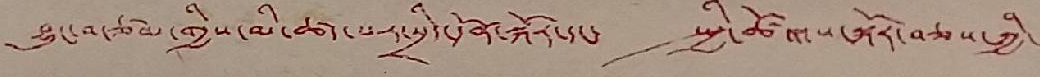བྱུང་བ་ཙམ་གྱིས་མི་ཚད་པར་སྲིད་དོན་སྐོར་དང་ སྤྱི་ཚོགས་སྐོར་བཅས་ཀྱི་
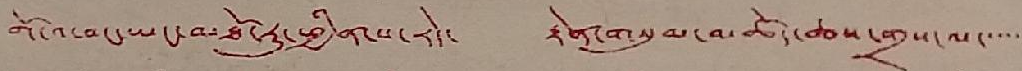གོ་འཕང་ཡང་མཐོ་རུ་ཕྱིན་པ་རེད་ རྟེན་གསུམ་མཆོད་ཆས་གྲས་ལ་་་་་
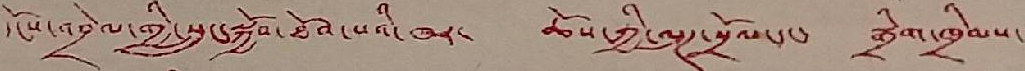དངོས་འབྲེལ་གྱི་སྲུང་སྐྱོབ་ཐོབ་པའི་ཁར་ ཆོས་ཀྱི་ལུཊ་སྲོལ་དང་ སྒྲིག་ཁྲིམས་
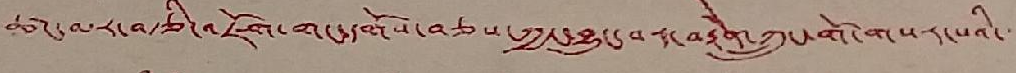ཚང་མར་བརྩི་འཇོག་གང་དགོས་བཅས་ཀྱང་བྱུང་བར་བརྟེན་ཀྲུང་གོ་གསར་པའི་་
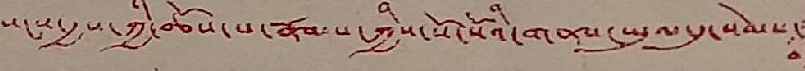སངས་རྒྱས་ཀྱི་ཆོས་པ་རྣམས་ཀྱིས་སོ་སོའི་གནས་ཡུལ་དུ་སེམས་
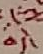བདེ་
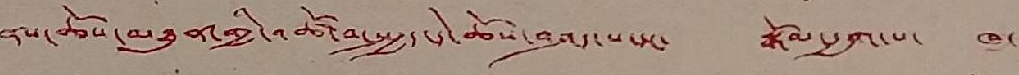ནས་ཆོས་མཐུན་གྱི་འཚོ་བ་སྤྱད་དེ་ཆོས་བཤད་པ་དང་ སྒོམ་རྒྱག་པ་ ཁ་
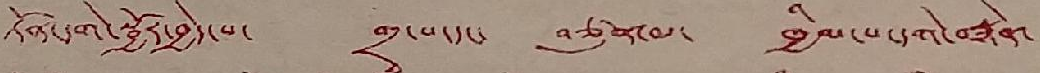ཏོན་དགེ་སྦྱོར་བྱེད་པ་ གྲྭ་པ་དང་ བཙུན་མ་ ཁྱིམ་པ་དགེ་བསྙེན་
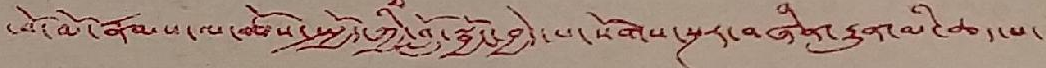ཕོ་མོ་རྣམས་ལ་ཆོས་སྤྱོད་ཀྱི་བློ་སྦྱོང་བྱེད་པ་སོགས་སྔར་བཞིན་རྒྱུན་མི་ཆད་པ་
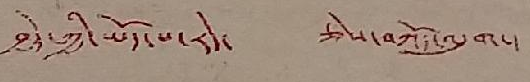བྱེད་ཀྱི་ཡོད་པ་རེད་ ཅེས་བཀོད་འདུག་།
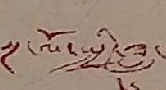སྔ་ལོ་སྤྱི་ཟླ་
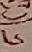༦
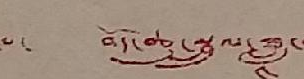པ་ བོད་ཆུ་སྦྲུལ་ཟླ་
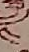༤
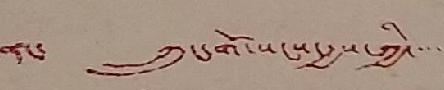ནང་ ཀྲུང་གོ་སངས་རྒྱས་ཀྱི་་་་་
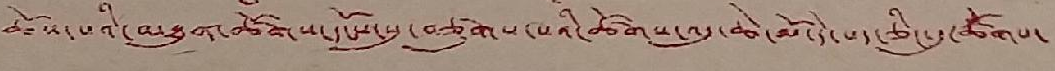ཆོས་པའི་མཐུན་ཚོགས་དངོས་སུ་བཙུགས་པའི་ཚོགས་འདུ་ཆེ་མོ་དེ་པད་ཅིང་དུ་ཚོགས་
